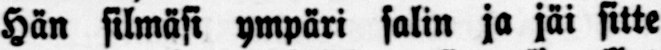Hän silmäsi ympäri salin ja jäi sitte
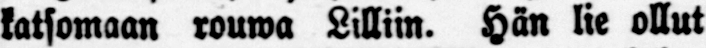katsomaan rouwa Lilliin. Hän lie ollut
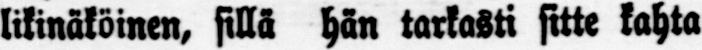likinäköinen, sillä hän tarkasti sitte kahta
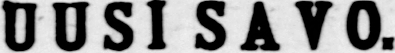UUSISAVO.
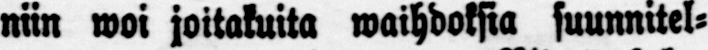niin woi joitakuita waihdoksia suunnitel-
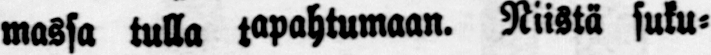massa tulla tapahtumaan. Niistä suku-
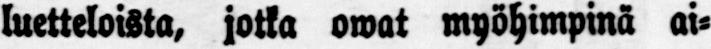luetteloista, jotka owat myöhimpinä ai-
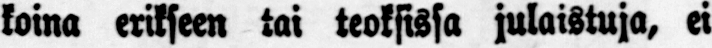koina erikseen tai teoksissa julaistuja, ei
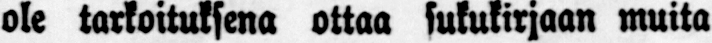ole tarkoituksena ottaa sukukirjaan muita
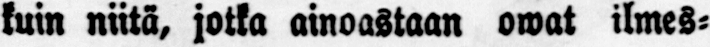kuin niitä, jotka ainoastaan owat ilmes-
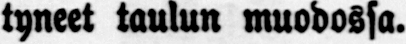tyneet taulun muodossa.
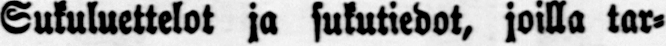Sukuluettelot ja sukutiedot, joilla tar-
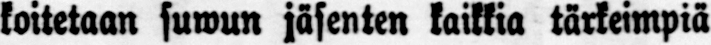koitetaan suwun jäsenten kaikkia tärkeimpiä
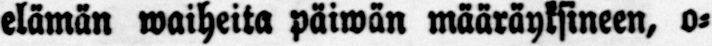elämän waiheita päiwän määräyksineen, o-
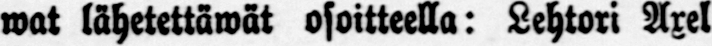wat lähetettäwät osoitteella: Lehtori Axel
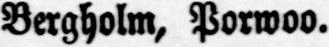Bergholm, Porwoo.
